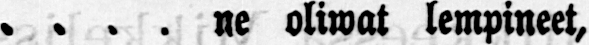. . . . ne oliwat lempineet.
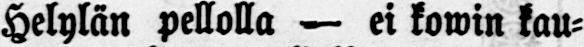Helylän pellolla — ei kowin kau-
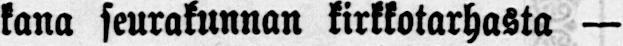kana seurakunnan kirkkotarhasta —
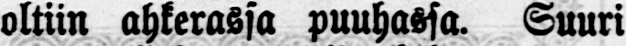oltiin ahkerassa puuhassa. Suuri
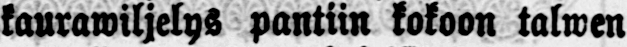kaurawiljelys pantiin kokoon talwen
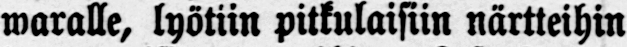waralle, lyötiin pitkulaisiin närtteihin
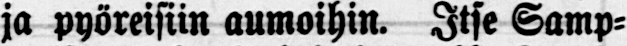ja pyöreisiin aumoihin. Itse Samp-
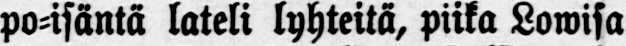po-isäntä lateli lyhteitä, piika Lowisa
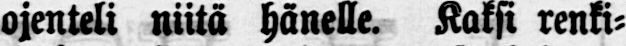ojenteli niitä hänelle. Kaksi renki-
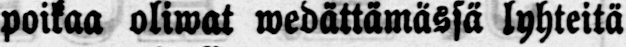poikaa oliwat wedättämässä lyhteitä
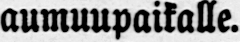aumuupaikalle.
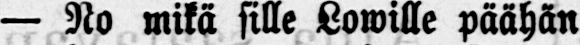— No mikä sille Lowille päähän
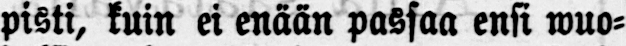pisti, kuin ei enään passaa ensi wuo-
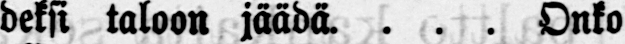deksi taloon jäädä. . . . Onko
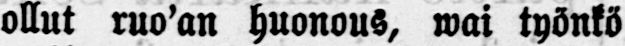ollut ruo’an huonous, wai työnkö
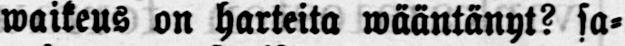waikeus on harteita wääntänyt? sa-
